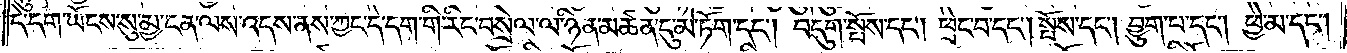དེ་དག་ཡོངས་སུ་མྱ་ངན་ལས་འདས་ནས་ཀྱང་དེ་དག་གི་རིང་བསྲེལ་ལ་ཉིན་མཚན་དུ་མེ་ཏོག་དང༌། བདུག་སྤོས་དང༌། ཕྲེང་བ་དང༌། སྤོས་དང༌། བྱུག་པ་དང༌། ཕྱེ་མ་དང༌།
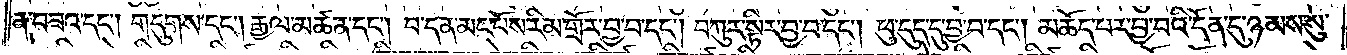ན་བཟའ་དང༌། གདུགས་དང༌། རྒྱལ་མཚན་དང༌། བ་དན་མང་པོས་རིམ་གྲོར་བྱ་བ་དང༌། བཀུར་སྟིར་བྱ་བ་དང༌། ཕུ་དུད་དུ་བྱ་བ་དང༌། མཆོད་པར་བྱ་བའི་དོན་དུ་ཉམས་སུ་
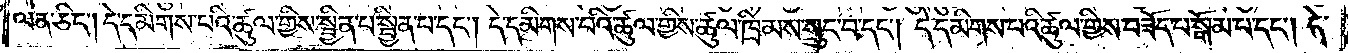ལེན་ཅིང༌། དེ་དམིགས་པའི་ཚུལ་གྱིས་སྦྱིན་པ་སྦྱིན་པ་དང༌། དེ་དམིགས་པའི་ཚུལ་གྱིས་ཚུལ་ཁྲིམས་བསྲུང་བ་དང༌། དེ་དམིགས་པའི་ཚུལ་གྱིས་བཟོད་པ་སྒོམ་པ་དང༌། དེ་
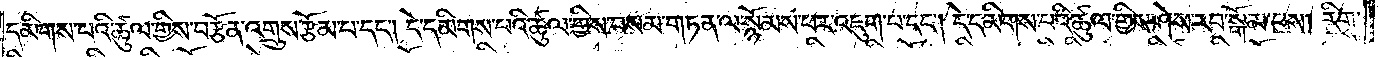དམིགས་པའི་ཚུལ་གྱིས་བརྩོན་འགྲུས་རྩོམ་པ་དང༌། དེ་དམིགས་པའི་ཚུལ་གྱིས་བསམ་གཏན་ལ་སྙོམས་པར་འཇུག་པ་དང༌། དེ་དམིགས་པའི་ཚུལ་གྱིས་ཤེས་རབ་སྒོམ་པས། རིགས་
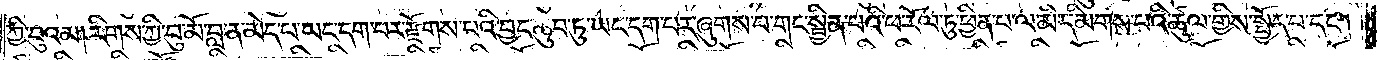ཀྱི་བུའམ། རིགས་ཀྱི་བུ་མོ་བླ་ན་མེད་པ་ཡང་དག་པར་རྫོགས་པའི་བྱང་ཆུབ་ཏུ་ཡང་དག་པར་ཞུགས་པ་གང་སྦྱིན་པའི་ཕ་རོལ་ཏུ་ཕྱིན་པ་ལ་མི་དམིགས་པའི་ཚུལ་གྱིས་སྤྱོད་པ་དང༌།
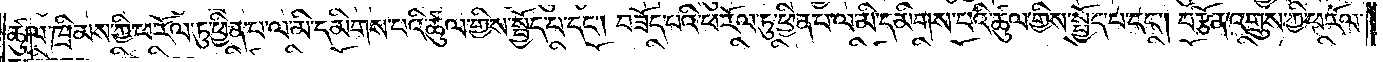ཚུལ་ཁྲིམས་ཀྱི་ཕ་རོལ་ཏུ་ཕྱིན་པ་ལ་མི་དམིགས་པའི་ཚུལ་གྱིས་སྤྱོད་པ་དང༌། བཟོད་པའི་ཕ་རོལ་ཏུ་ཕྱིན་པ་ལ་མི་དམིགས་པའི་ཚུལ་གྱིས་སྤྱོད་པ་དང༌། བརྩོན་འགྲུས་ཀྱི་ཕ་རོལ་
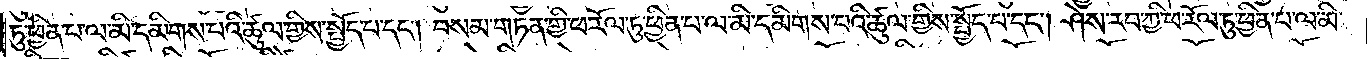ཏུ་ཕྱིན་པ་ལ་མི་དམིགས་པའི་ཚུལ་གྱིས་སྤྱོད་པ་དང༌། བསམ་གཏན་གྱི་ཕ་རོལ་ཏུ་ཕྱིན་པ་ལ་མི་དམིགས་པའི་ཚུལ་གྱིས་སྤྱོད་པ་དང༌། ཤེས་རབ་ཀྱི་ཕ་རོལ་ཏུ་ཕྱིན་པ་ལ་མི་
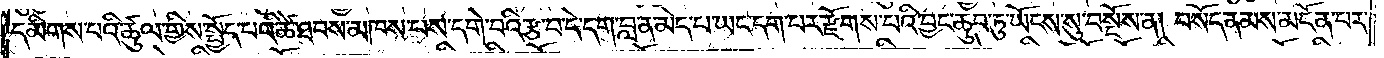དམིགས་པའི་ཚུལ་གྱིས་སྤྱོད་པའི་ཚེ་ཐབས་མཁས་པས་དགེ་བའི་རྩ་བ་དེ་དག་བླ་ན་མེད་པ་ཡང་དག་པར་རྫོགས་པའི་བྱང་ཆུབ་ཏུ་ཡོངས་སུ་བསྔོས་ན། བསོད་ནམས་མངོན་པར་
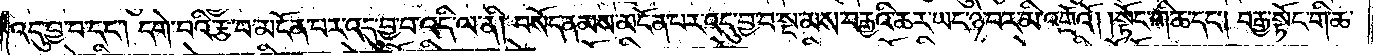འདུ་བྱ་བ་དང༌། དགེ་བའི་རྩ་བ་མངོན་པར་འདུ་བྱ་བ་འདི་ལ་ནི། བསོད་ནམས་མངོན་པར་འདུ་བྱ་བ་སྔ་མས་བརྒྱའི་ཆར་ཡང་ཉེ་བར་མི་འགྲོའོ། །སྟོང་གི་ཆ་དང༌། བརྒྱ་སྟོང་གི་ཆ་
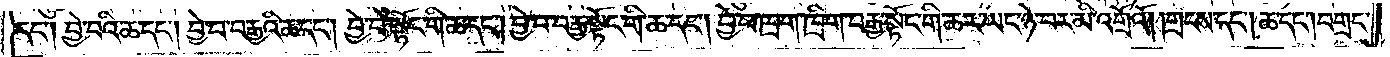དང༌། བྱེ་བའི་ཆ་དང༌། བྱེ་བ་བརྒྱའི་ཆ་དང༌། བྱེ་བ་སྟོང་གི་ཆ་དང༌། བྱེ་བ་བརྒྱ་སྟོང་གི་ཆ་དང༌། བྱེ་བ་ཁྲག་ཁྲིག་བརྒྱ་སྟོང་གི་ཆར་ཡང་ཉེ་བར་མི་འགྲོའོ། །གྲངས་དང༌། ཆ་དང༌། བགྲང་
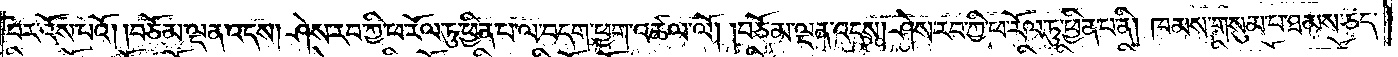བར་འོས་པའོ། །བཅོམ་ལྡན་འདས། ཤེས་རབ་ཀྱི་ཕ་རོལ་ཏུ་ཕྱིན་པ་ལ་བདག་ཕྱག་འཚལ་ལོ། །བཅོམ་ལྡན་འདས། ཤེས་རབ་ཀྱི་ཕ་རོལ་ཏུ་ཕྱིན་པ་ནི། ཁམས་གསུམ་པ་ཐམས་ཅད་
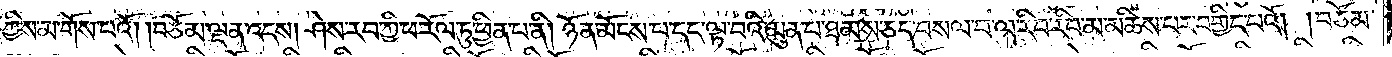ཀྱིས་མ་གོས་པའོ། །བཅོམ་ལྡན་འདས། ཤེས་རབ་ཀྱི་ཕ་རོལ་ཏུ་ཕྱིན་པ་ནི། ཉོན་མོངས་པ་དང་ལྟ་བའི་མུན་པ་ཐམས་ཅད་བསལ་བ་ལ་རིབ་རིབ་བེམ་མཆིས་པར་བགྱིད་པའོ། །བཅོམ་
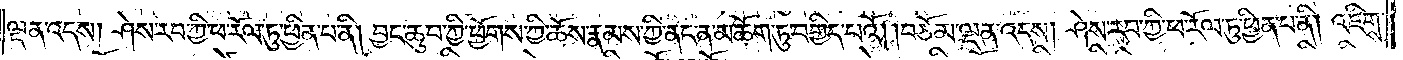ལྡན་འདས། ཤེས་རབ་ཀྱི་ཕ་རོལ་ཏུ་ཕྱིན་པ་ནི། བྱང་ཆུབ་ཀྱི་ཕྱོགས་ཀྱི་ཆོས་རྣམས་ཀྱི་ནང་ན་མཆོག་ཏུ་བགྱིད་པའོ། །བཅོམ་ལྡན་འདས། ཤེས་རབ་ཀྱི་ཕ་རོལ་ཏུ་ཕྱིན་པ་ནི། འཇིགས་
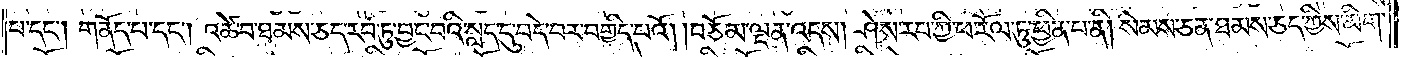པ་དང༌། གནོད་པ་དང༌། འཚེ་བ་ཐམས་ཅད་རབ་ཏུ་བྱང་བའི་སླད་དུ་བདེ་བར་བགྱིད་པའོ། །བཅོམ་ལྡན་འདས། ཤེས་རབ་ཀྱི་ཕ་རོལ་ཏུ་ཕྱིན་པ་ནི། སེམས་ཅན་ཐམས་ཅད་ཀྱིས་མིག་
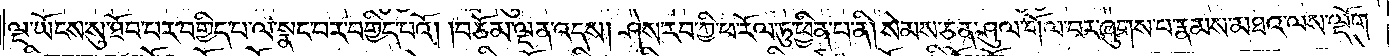ལྔ་ཡོངས་སུ་ཐོབ་པར་བགྱིད་པ་ལ་སྣང་བར་བགྱིད་པའོ། །བཅོམ་ལྡན་འདས། ཤེས་རབ་ཀྱི་ཕ་རོལ་ཏུ་ཕྱིན་པ་ནི། སེམས་ཅན་ཤུལ་གོལ་བར་ཞུགས་པ་རྣམས་མཐའ་ལས་ལྡོག་
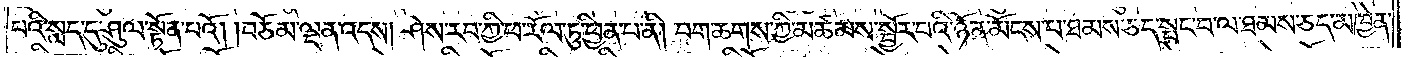པའི་སླད་དུ་ཤུལ་སྟོན་པའོ། །བཅོམ་ལྡན་འདས། ཤེས་རབ་ཀྱི་ཕ་རོལ་ཏུ་ཕྱིན་པ་ནི། བག་ཆགས་ཀྱི་མཚམས་སྦྱོར་བའི་ཉོན་མོངས་པ་ཐམས་ཅད་སྤང་བ་ལ་ཐམས་ཅད་མཁྱེན་
